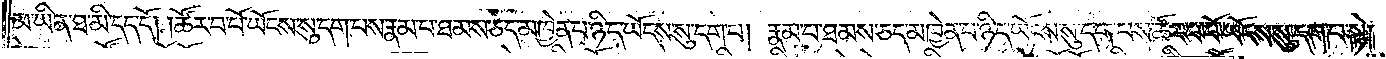མ་ཡིན་ཐ་མི་དད་དོ། །ཚོར་བ་པོ་ཡོངས་སུ་དག་པས་རྣམ་པ་ཐམས་ཅད་མཁྱེན་པ་ཉིད་ཡོངས་སུ་དག་པ། རྣམ་པ་ཐམས་ཅད་མཁྱེན་པ་ཉིད་ཡོངས་སུ་དག་པས་ཚོར་བ་པོ་ཡོངས་སུ་དག་པ་སྟེ།
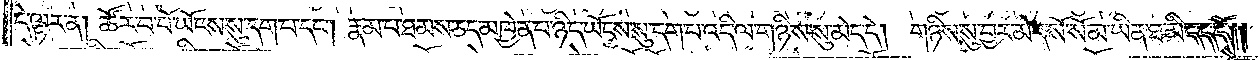དེ་ལྟར་ན། ཚོར་བ་པོ་ཡོངས་སུ་དག་པ་དང༌། རྣམ་པ་ཐམས་ཅད་མཁྱེན་པ་ཉིད་ཡོངས་སུ་དག་པ་འདི་ལ་གཉིས་སུ་མེད་དེ། གཉིས་སུ་བྱར་མེད་སོ་སོ་མ་ཡིན་ཐ་མི་དད་དོ༎
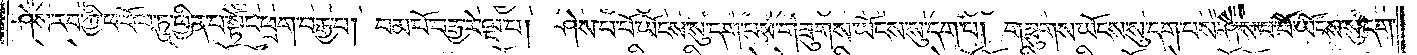ཤེས་རབ་ཀྱི་ཕ་རོལ་ཏུ་ཕྱིན་པ་སྟོང་ཕྲག་བརྒྱ་པ། །བམ་པོ་བརྒྱ་རེ་ལྔ་པ། །ཤེས་པ་པོ་ཡོངས་སུ་དག་པས་གཟུགས་ཡོངས་སུ་དག་པ། གཟུགས་ཡོངས་སུ་དག་པས་ཤེས་པ་པོ་ཡོངས་སུ་དག་
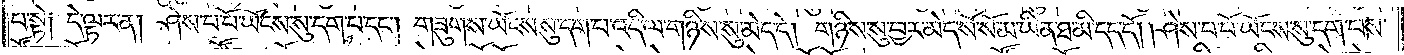པ་སྟེ༑ དེ་ལྟར་ན། ཤེས་པ་པོ་ཡོངས་སུ་དག་པ་དང༌། གཟུགས་ཡོངས་སུ་དག་པ་འདི་ལ་གཉིས་སུ་མེད་དེ། གཉིས་སུ་བྱར་མེད་སོ་སོ་མ་ཡིན་ཐ་མི་དད་དོ། །ཤེས་པ་པོ་ཡོངས་སུ་དག་པས་
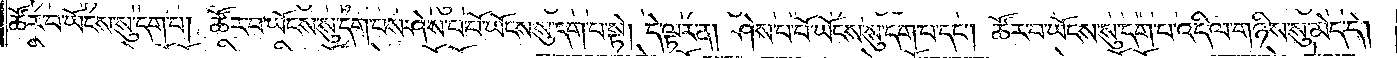ཚོར་བ་ཡོངས་སུ་དག་པ། ཚོར་བ་ཡོངས་སུ་དག་པས་ཤེས་པ་པོ་ཡོངས་སུ་དག་པ་སྟེ། དེ་ལྟར་ན། ཤེས་པ་ཡོངས་སུ་དག་པ་དང༌། ཚོར་བ་ཡོངས་སུ་དག་པ་འདི་ལ་གཉིས་སུ་མེད་དེ།
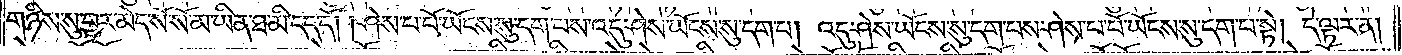གཉིས་སུ་བྱར་མེད་སོ་སོ་མ་ཡིན་ཐ་མི་དད་དོ། །ཤེས་པ་པོ་ཡོངས་སུ་དག་པས་འདུ་ཤེས་ཡོངས་སུ་དག་པ། འདུ་ཤེས་ཡོངས་སུ་དག་པས་ཤེས་པ་པོ་ཡོངས་སུ་དག་པ་སྟེ། དེ་ལྟར་ན།
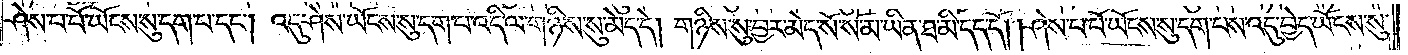ཤེས་པ་པོ་ཡོངས་སུ་དག་པ་དང༌། འདུ་ཤེས་ཡོངས་སུ་དག་པ་འདི་ལ་གཉིས་སུ་མེད་དེ། གཉིས་སུ་བྱར་མེད་སོ་སོ་མ་ཡིན་ཐ་མི་དད་དོ། །ཤེས་པ་པོ་ཡོངས་སུ་དག་པས་འདུ་བྱེད་ཡོངས་སུ་
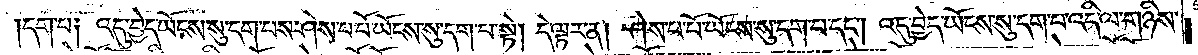དག་པ༑ འདུ་བྱེད་ཡོངས་སུ་དག་པས་ཤེས་པ་པོ་ཡོངས་སུ་དག་པ་སྟེ། དེ་ལྟར་ན། ཤེས་པ་པོ་ཡོངས་སུ་དག་པ་དང༌། འདུ་བྱེད་ཡོངས་སུ་དག་པ་འདི་ལ་གཉིས་
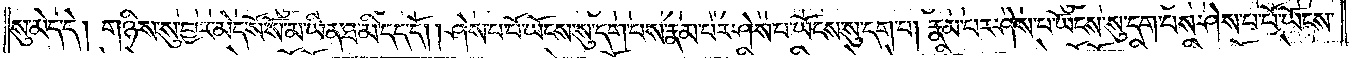སུ་མེད་དེ། གཉིས་སུ་བྱར་མེད་སོ་སོ་མ་ཡིན་ཐ་མི་དད་དོ། །ཤེས་པ་པོ་ཡོངས་སུ་དག་པས་རྣམ་པར་ཤེས་པ་ཡོངས་སུ་དག་པ། རྣམ་པར་ཤེས་པ་ཡོངས་སུ་དག་པས་ཤེས་པ་པོ་ཡོངས་
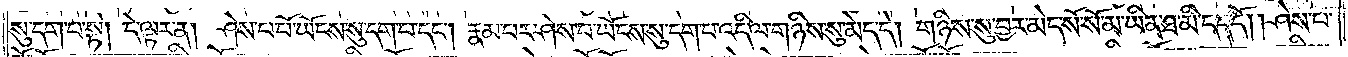སུ་དག་པ་སྟེ། དེ་ལྟར་ན། ཤེས་པ་པོ་ཡོངས་སུ་དག་པ་དང༌། རྣམ་པར་ཤེས་པ་ཡོངས་སུ་དག་པ་འདི་ལ་གཉིས་སུ་མེད་དེ། གཉིས་སུ་བྱར་མེད་སོ་སོ་མ་ཡིན་ཐ་མི་དད་དོ། །ཤེས་པ་
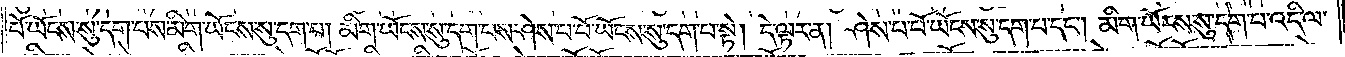པོ་ཡོངས་སུ་དག་པས་མིག་ཡོངས་སུ་དག་པ། མིག་ཡོངས་སུ་དག་པས་ཤེས་པ་པོ་ཡོངས་སུ་དག་པ་སྟེ། དེ་ལྟར་ན། ཤེས་པ་པོ་ཡོངས་སུ་དག་པ་དང༌། མིག་ཡོངས་སུ་དག་པ་འདི་ལ་
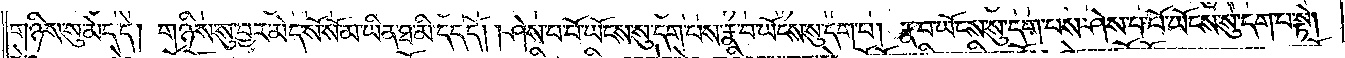གཉིས་སུ་མེད་དེ། གཉིས་སུ་བྱར་མེད་སོ་སོ་མ་ཡིན་ཐ་མི་དད་དོ། །ཤེས་པ་པོ་ཡོངས་སུ་དག་པས་རྣ་བ་ཡོངས་སུ་དག་པ། རྣ་བ་ཡོངས་སུ་དག་པས་ཤེས་པ་པོ་ཡོངས་སུ་དག་པ་སྟེ།
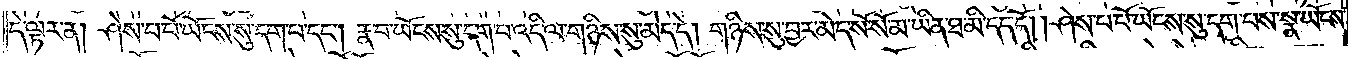དེ་ལྟར་ན། ཤེས་པ་པོ་ཡོངས་སུ་དག་པ་དང༌། རྣ་བ་ཡོངས་སུ་དག་པ་འདི་ལ་གཉིས་སུ་མེད་དེ། གཉིས་སུ་བྱར་མེད་སོ་སོ་མ་ཡིན་ཐ་མི་དད་དོ། །ཤེས་པ་པོ་ཡོངས་སུ་དག་པས་སྣ་ཡོངས་
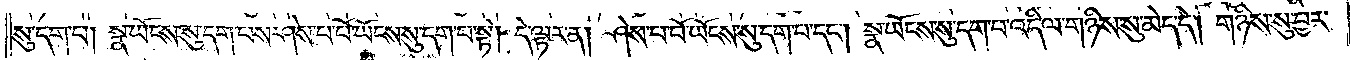སུ་དག་པ། སྣ་ཡོངས་སུ་དག་པས་ཤེས་པ་པོ་ཡོངས་སུ་དག་པ་སྟེ། དེ་ལྟར་ན། ཤེས་པ་པོ་ཡོངས་སུ་དག་པ་དང༌། སྣ་ཡོངས་སུ་དག་པ་འདི་ལ་གཉིས་སུ་མེད་དེ། གཉིས་སུ་བྱར་
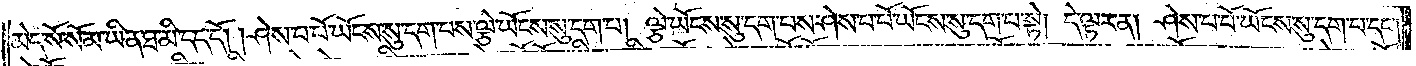མེད་སོ་སོ་མ་ཡིན་ཐ་མི་དད་དོ། །ཤེས་པ་པོ་ཡོངས་སུ་དག་པས་ལྕེ་ཡོངས་སུ་དག་པ། ལྕེ་ཡོངས་སུ་དག་པས་ཤེས་པ་པོ་ཡོངས་སུ་དག་པ་སྟེ། དེ་ལྟར་ན། ཤེས་པ་པོ་ཡོངས་སུ་དག་པ་དང༌།
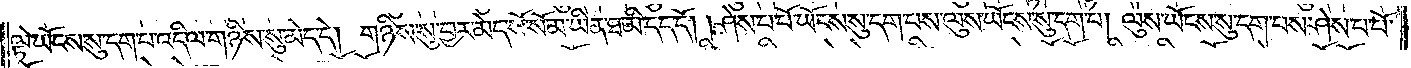ལྟེ་ཡོངས་སུ་དག་པ་འདི་ལ་གཉིས་སུ་མེད་དེ། གཉིས་སུ་བྱར་མེད་སོ་སོ་མ་ཡིན་ཐ་མི་དད་དོ། །ཤེས་པ་པོ་ཡོངས་སུ་དག་པས་ལུས་ཡོངས་སུ་དག་པ། ལུས་ཡོངས་སུ་དག་པས་ཤེས་པ་པོ་
